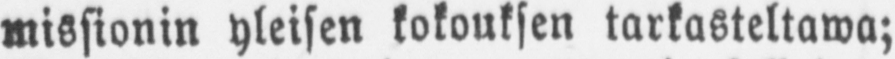missionin yleisen kokouksen tarkasteltawa;
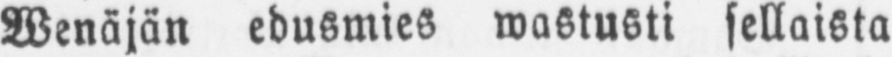Wenäjän edusmies wastusti sellaista
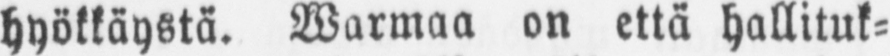hyökkäystä. Warmaa on että hallituk-
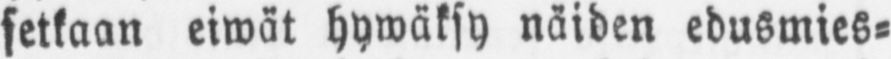setkaan eiwät hywäksy näiden edusmies-
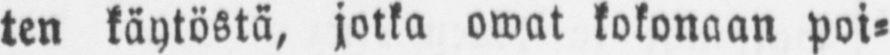ten käytöstä, jotka owat kokonaan poi-
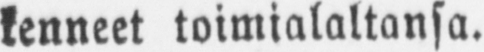kenneet toimialaltansa.
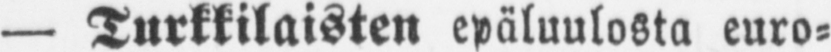— Turkkilaisten epäluulosta euro-
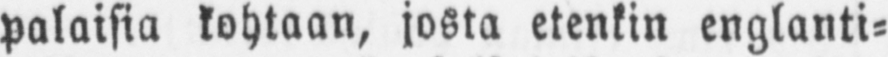palaisia kohtaan, josta etenkin englanti-
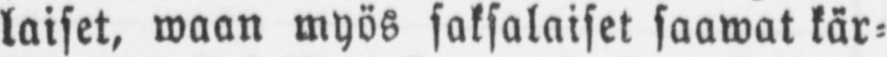laiset, waan myös saksalaiset saawat kär-
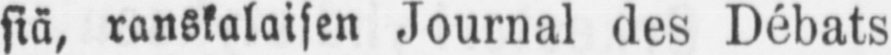siä, ranskalaisen Journal des Débats
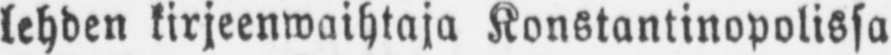lehden kirjeenwaihtaja Konstantinopolissa
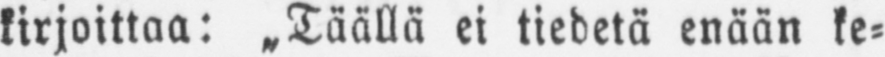kirjoittaa: ˶Täällä ei tiedetä enään ke-
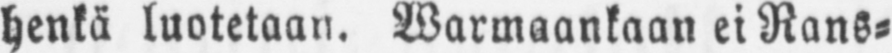henkä luotetaan. Warmaankaan ei Rans-
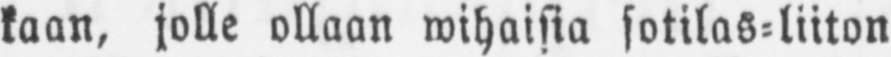kaan, jolle ollaan wihaisia sotilas-liiton
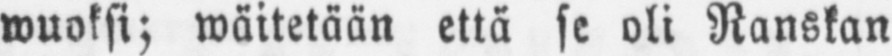wuoksi; wäitetään että se oli Ranskan
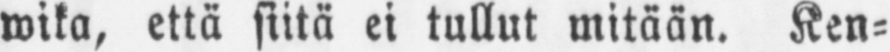wika, että siitä ei tullut mitään. Ken-
